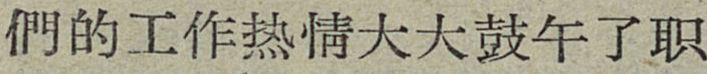們的工作热情大大鼓午了职
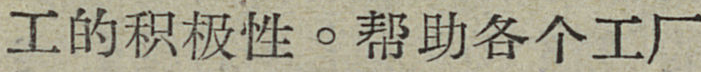工的积极性。帮助各个工厂
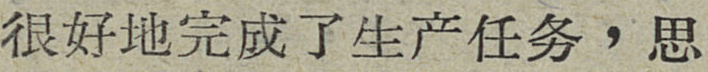很好地完成了生产任务，思
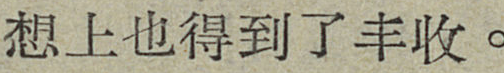想上也得到了丰收。
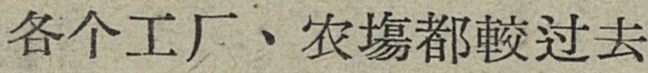各个工厂、农塲都較过去
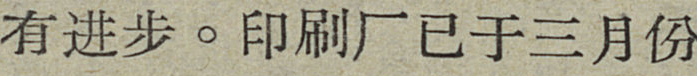有进步。印刷厂已于三月份
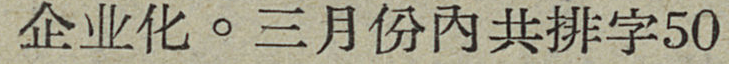企业化。三月份内共排字50
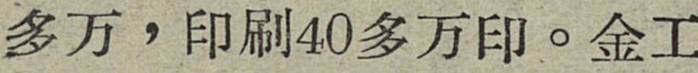多万，印刷40多万印。金工
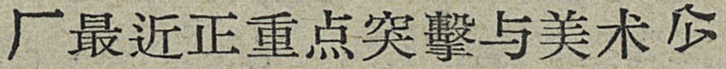厂最近正重点突擊与美术公
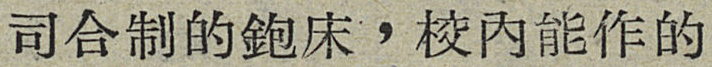司合制的鉋床，校内能作的
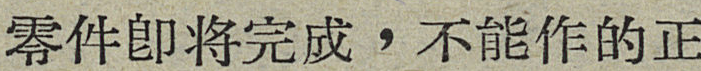零件卽将完成，不能作的正
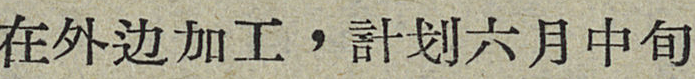在外边加工，計划六月中旬
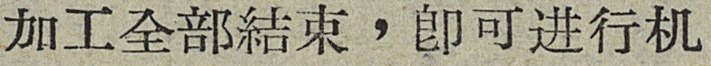加工全部結束，卽可进行机
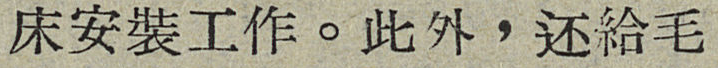床安装工作。此外，还給毛
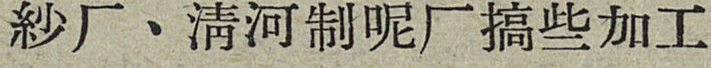紗厂、清河制呢厂搞些加工
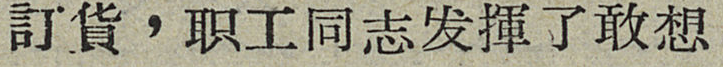訂貨，职工同志发揮了敢想
